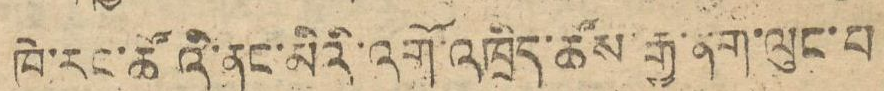ཁེ་རང་ཚོའི་ནང་མིའི་འགོ་འཁྲིད་ཚོས་རྒྱ་ནག་ལུང་པ
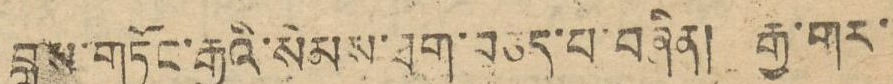བློས་གཏོང་རྒྱུའི་སེམས་ཐག་བཅད་པ་བཞིན། རྒྱ་གར་
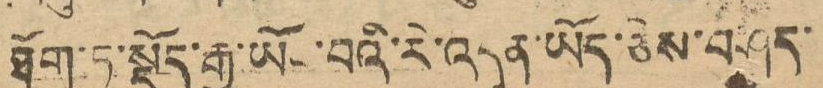ཐོག་ཏུ་སྡོད་རྒྱུ་ཡོང་བའི་རེ་འདུན་ཡོད་ཅེས་བཤད་
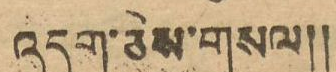འདུག་ཅེས་གསལ།།
